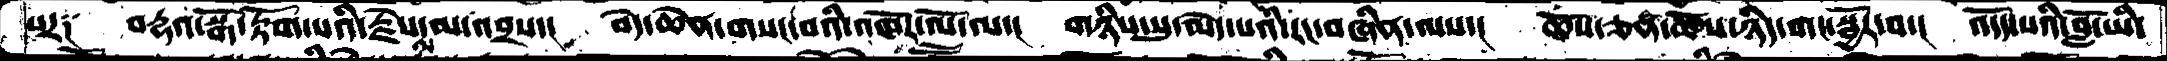པར༑  བརྡའ་སྒོ་རྟོག་པའི་རྗེས་མ་འབྲས་།  བདེ་ཆེན་གསང་བའི་འཁོར་ལོ་ལ་།  གཉིས་སུ་མེད་པའི་རང་བཞིན་ལས་།  ཆོས་ཅན་ཆོས་ཉིད་གང་སྦྱར་བ་།  འདོད་པའི་བློ་ཡི
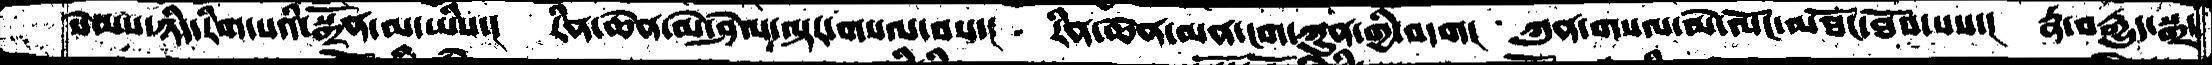སེམས་ཉིད་རིག་པའི་སྒྲོན་མ་ཡིས་།  རིན་ཆེན་མེ་ཤེལ་ལྟར་གསལ་བས་།  རིན་ཆེན་མན་ངག་ཀུན་གྱི་བདག།  ཀུན་གསལ་མེ་ལོང་མཐོང་ཐོབ་པས་།  རྣ་བརྒྱུད་སྒྲ་
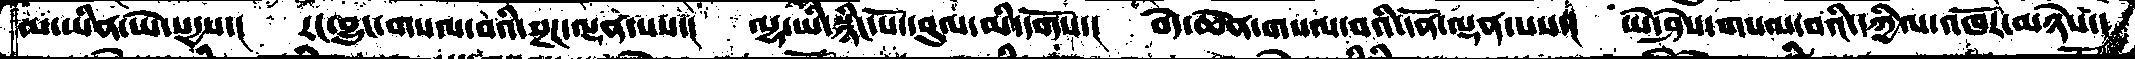མ་ཡིན་ཡེ་སདྱས་།   རང་བྱུང་གསལ་བའི་སྔཌ་ལྡན་པས་།  ལྷ་ཡི་སྙིང་པོ་དབུལ་མི་དགོས་།   བདེ་ཆེན་གསལ་བའི་དོན་ལྡན་པས་།  ཡེ་ཤེས་གསལ་བའི་དཀྱིལ་འཁོར་མཉེས་།
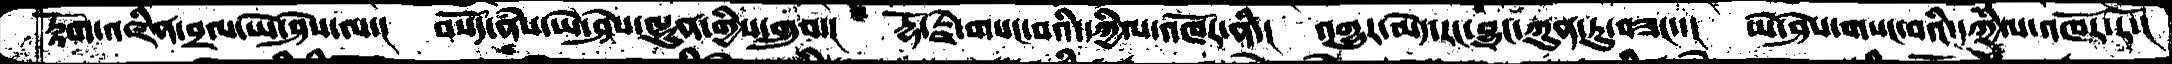རྟོག་འཛིན་བྲལ་ཡེ་ཤེས་ལ་།  བསོད་ནཾས་ཡེ་ཤེས་ལྷུན་གྱིས་གྲུབ་།  རྡོ་རྗེ་གསང་བའི་དཀྱིལ་འཁོར་ནི་།  འགྱུར་མེད་རང་བྱུང་ཀུན་ཏུ་བཟང་་།  ཡེ་ཤེས་གསང་བའི་དཀྱིལ་འཁོར་རོ་།།
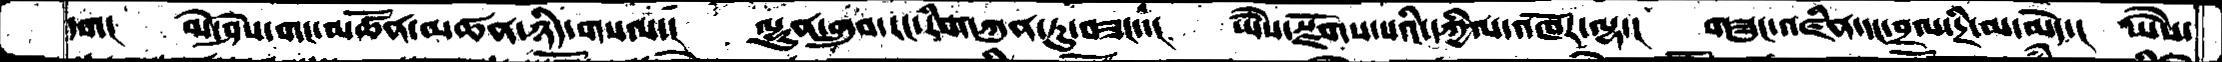དག།   ཡེ་ཤེས་གང་མཚོན་མཚན་ཉེད་གསལ་།  ལྷུན་གྲུབ་རང་རིག་ཀུན་ཏུ་བཟང་།  ཡཻས་སྫོགས་པའི་དཀྱིལ་འཁོར་ལྷ་།  གཟུང་འཛིན་དང་བྲལ་དྲི་མ་མེད་།  ཡཻས་
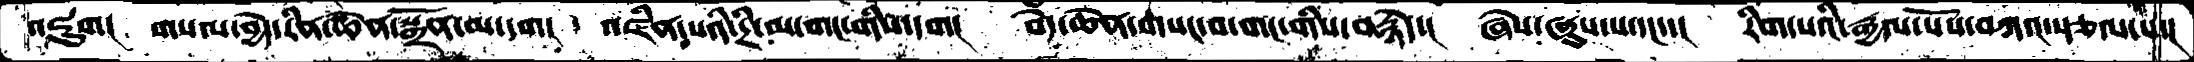འཇུག།  གསལ་བྱེད་རིན་ཆེན་སྒྲོན་མ་དག།  འཛིན་པའི་དྲི་མ་གང་གིས་དག།  བདེ་ཆེན་གསང་བ་གང་གིས་བརྙེད་།  ཞེས་ཞུས་པ་དང་་།  རིག་པའི་རྒྱལ་པོས་བཀའ་རྩལ་པ་།
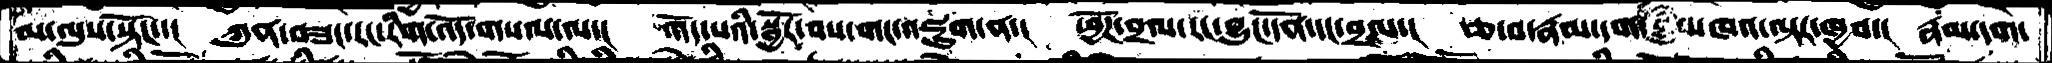མ་ལུས་སྟོང་།  ཀུན་བཟང་རང་རིག་འོད་གསལ་ལ་།  འདོད་པའི་སྦྱོར་བས་གང་འཇུག་ན་།  ཕྱོཌ་བྲལ་རང་བྱུང་དོན་དང་བྲལ་།  རྩ་བ་རྣམ་དག་མཁའ་ལྟར་ཁྱབ་།  རྣམ་དག་
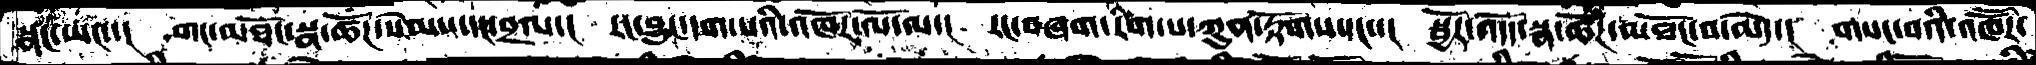སྣང་ཡང་་།  གང་མཐོང་སྣ་ཚོཌ་སེམས་དང་བྲལ་།  རང་བྱུང་དག་པའི་འཁོར་ལོ་ལ་།  རང་བཞག་རིག་པ་ཀུན་རྟོགས་དང་་།  སྦྱོར་འདོད་སྣ་ཚོགཌ་མཐོང་བ་མེད་།  གསང་བའི་འཁཽར་
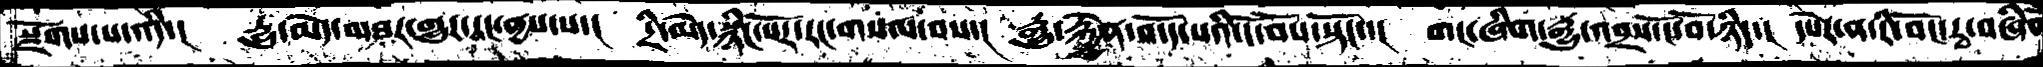སྫོགས་པ་འདི་།  དྱུ་མེད་མཐར་གྱུར་ངང་བྱས་པ་།   དྲི་མེད་སྙིང་པོར་རང་གསལ་བས་།  རྒྱུ་རྐྱེན་འདོད་པའི་ངོ་བོས་སྟོང་།  གང་ཞིག་རྒྱུ་འབྲས་ངོ་བོ་ཉིད་།  དཔེར་ན་རི་བོང་རྭ་བཞིན
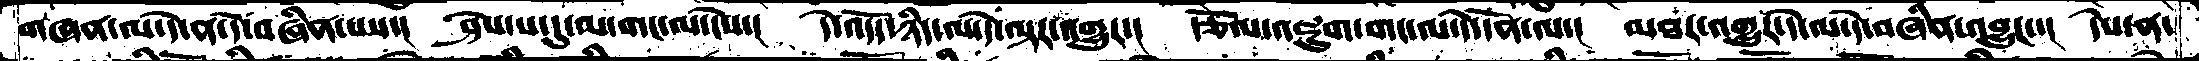གཞན་ལ་དེ་ན་དེ་བཞིན་པས་། ཤེས་པ་དུ་མ་གང་ལ་ངེས་།  དེ་འདོད་ཉིད་ལ་དེ་ལྟར་འགྱུར་། རྩོལ་འཇུག་གང་ལ་དེ་དོན་ལ་།  མཐར་འགྱུར་དེ་ལ་དེ་བཞིན་འབྱུང་་།  དེས་ན་
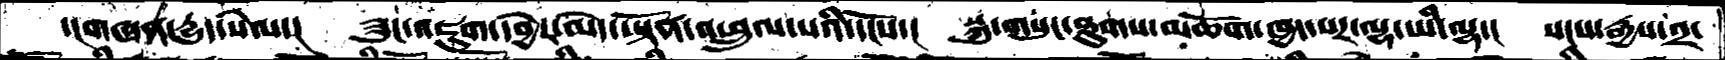་།གཞན་དྱུད་སེལ་།  ཟུང་འཇུག་དབྱེར་མེད་ཡྟོན་འཕྲུལ་པའི་དངོས་།   སྐུ་གསུང་ཐུགས་མཆོག་ཁྱད་པར་ལྷ་ཡི་ལྷ་།  སངས་རྒྱས་༢་
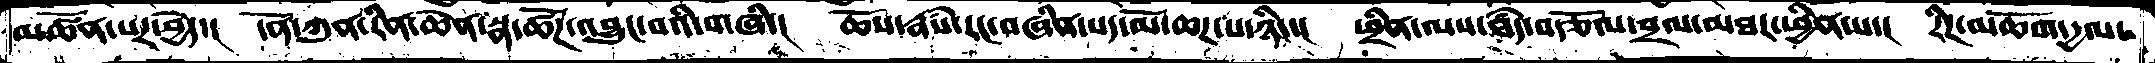མཚོན་པར་བྱེད་།   དོན་ཀུན་རིན་ཆེན་སྣ་ཚོཌ་འབྱུང་བའི་གཞི་།  ཆོས་རྣཾས་རང་བཞིན་པད་མོ་ཆཌ་པ་ཉིད་།  ཕྲིན་ལས་ཐཾད་བརྩོལ་བྲལ་མཐར་ཕྱིན་པ་།  རིཌ་མཆོག་དྱལ་
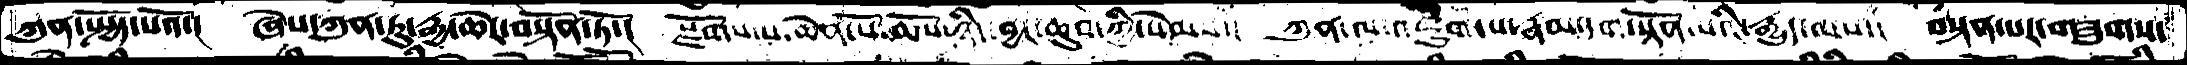ཀུན་སྤྱོད་པའོ་།  ཞེས་ཀུན་ཏུ་རྒྱ་ཆེར་བསྟོན་ཏོ་།  སྫོགས་པ་ཆེན་པོ་ཆོས་ཉིད་བྱང་ཆུབ་ཀྱི་སེམས་།  ཀུན་ལ་འཇུག་པ་རྣམ་དག་སྟོན་པའི་རྒྱུད་ལས་།  བསྟན་པར་གཟུགས་
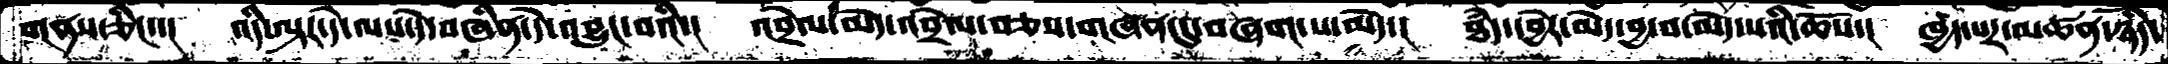གནས་ཅིང་་།  འདི་ལྟར་དེ་ལས་དེ་བཞིན་དེ་འབྱུང་བའི་།  འབྲེལ་མེད་འབྲེལ་བཅས་གཞན་དུ་བཞག་པ་མེད་།   ཐཾད་དབྱེར་མེད་བྱ་བ་མེད་པའི་ཆོས་།  ཁྱད་པར་མཚན་ཉིད་
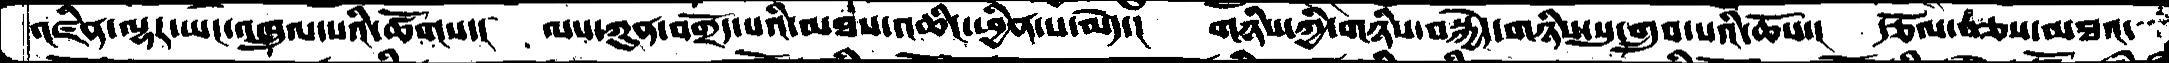འཛིན་ལྷར་ཡང་འཁྲུལ་པའི་ཚོགས་།  ལས་ཀུན་བགྲོད་པའི་མཐས་འཆིང་ཕྱིན་པ་མེད་།  གཉིས་ཀྱི་གཉིས་བསྐྱེད་གཉིས་སུ་གྲུབ་པའི་ཆོས་།  རྩོལ་བཅས་མཐའ་
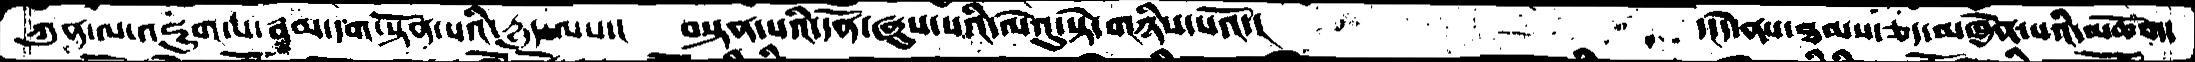ཀུན་ལ་འཇུག་པ་རྣམ་དག་སྟོན་པའི་དྱུད་ལས་།  བསྟན་པའི་དོན་ཞུས་པའི་ལེའུ་སྟེ་གཉིས་པའོ་།                    ་།དེ་ནས་ཐམས་ཅད་མཁྱེན་པའི་མཆོག་
